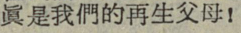眞是我們的再生父母！
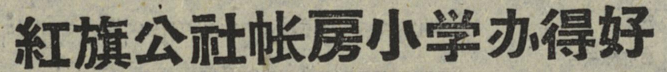紅旗公社帐房小学办得好
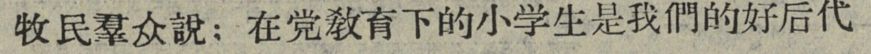牧民羣众說：在党敎育下的小学生是我們的好后代。
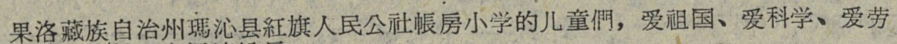果洛藏族自治州瑪沁县紅旗人民公社帳房小学的儿童們，爱祖国、爱科学、爱劳
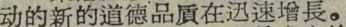动的新的消德品貭在迅速增長。
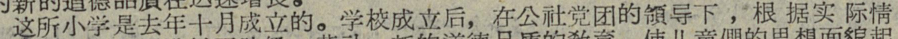这所小学是去年十月成立的。学校成立后，在公社党团的領导下，根据实际情
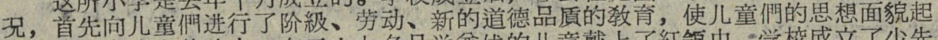況，首先向儿童們进行了阶級、劳动、新的道德品貭的敎育，使儿童們的思想面貌起
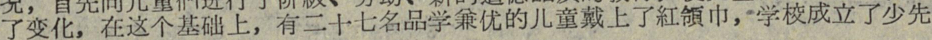了变化，在这个基础上，有三十七名品学我优的儿童戴上了紅領巾，学校成立了少先
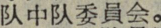队中队委員会。
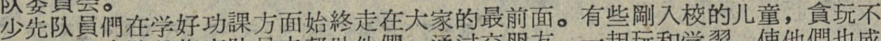少先队員們在学好功課方面始終走在大家的最前面。有些剛入校的儿童重貪玩切不
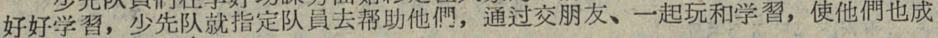好好学習，少先队就指定队員去帮助他們，通过交明友、一起玩和学習，使他們也成
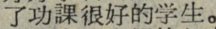了功課很好的学生。
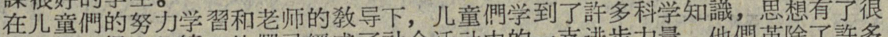在儿童們的努力学習和老师的敎导下，儿童們学到了許多科学知識，思想有了很
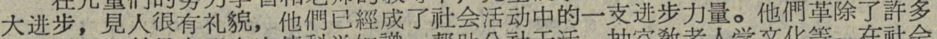大进步；見人很有礼貌，他們已經成了社会活动中的一支进步力量。他們革除了許多
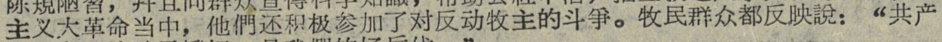主义大革命当中，他們还积极参加了对反动牧主的斗爭。牧民群众都反映說：“共产
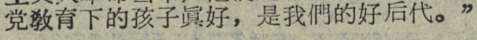党敎育下的孩子眞好，是我們的好后代。”
